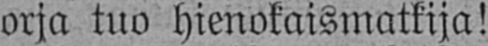orja tuo hienokaismatkija!
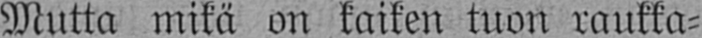Mutta mikä on kaiken tuon raukka-
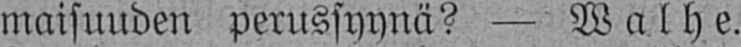maisuuden perussyynä? — Walhe.
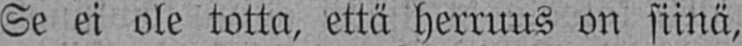Se ei ole totta, että herruus on siinä,
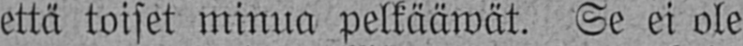että toiset minua pelkääwät. Se ei ole
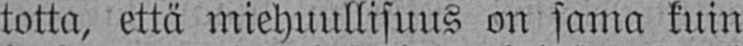totta, että miehuullisuus on sama kuin
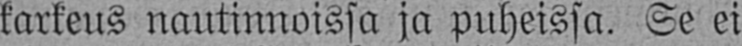karkeus nautinnoissa ja puheissa. Se ei
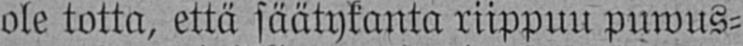ole totta, että säätykanta riippuu puwus-
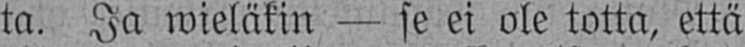ta. Ja wieläkin — se ei ole totta, että
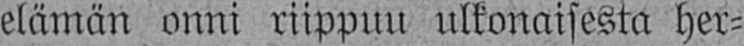elämän onni riippuu ulkonaisesta her-
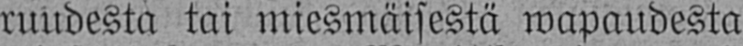ruudesta tai miesmäisestä wapaudesta
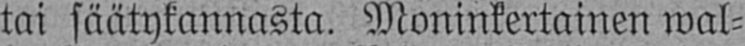tai säätykannasta. Moninkertainen wal-
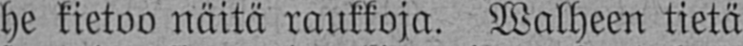he kietoo näitä raukkoja. Walheen tietä
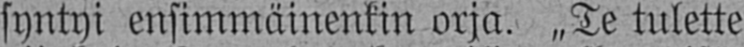syntyi ensimmäinenkin orja. „Te tulette
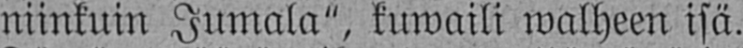niinkuin Jumala", kuwaili walheen isä.
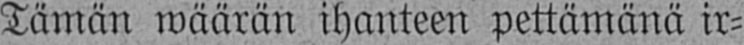Tämän wäärän ihanteen pettämänä ir-
